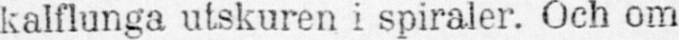kalflunga utskuren i spiraler. Och om
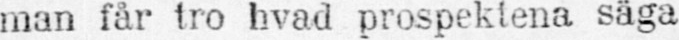man får tro hvad prospektena säga
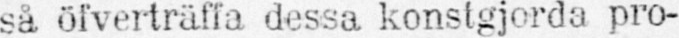så öfverträffa dessa konstgjorda pro-
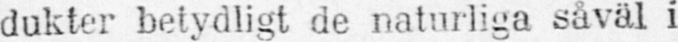dukter betydligt de naturliga såväl i
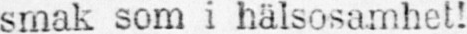smak som i hälsosamhet!
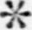*
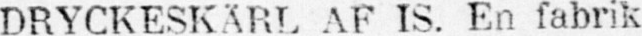DRYCKESKÄRL AF IS. En fabrik
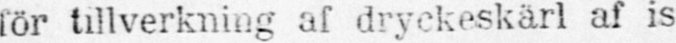för tillverkning af dryckeskärl af is
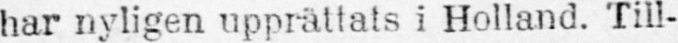har nyligen upprättats i Holland. Till-
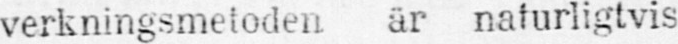verkningsmetoden är naturligtvis
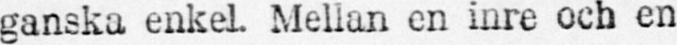ganska enkel. Mellan en inre och en
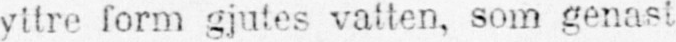yttre form gjutes vatten, som genast
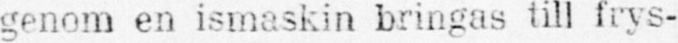genom en ismaskin bringas till frys-
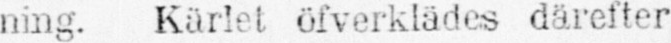ning. Kärlet öfverklädes därefter
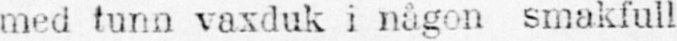med tunn vaxduk i någon smakfull
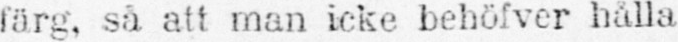färg, så att man icke behöfver hålla
